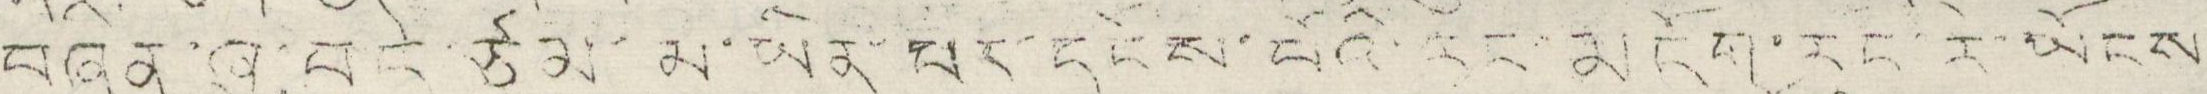བཞིན་ཞུ་བདེ་ཙམ་མ་ཡིན་པར་དངོས་པོའི་རང་མདོག་རང་རེ་ཡོངས
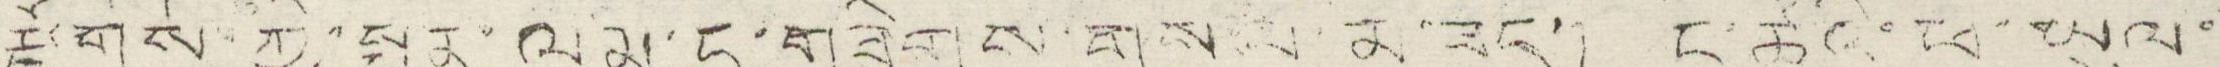རྫོགས་ཀྱི་སྤྱན་ལམ་དུ་གཟིགས་གསལ་མ་ཟད་། ང་ཚོའི་ཕ་ཡུལ་
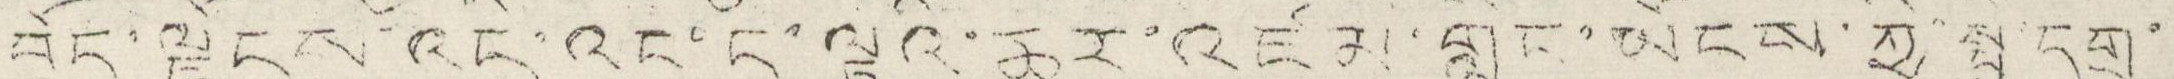བོད་ལྗོངས་འདི་འང་ད་ལྟའི་ཆར་འཛམ་གླིང་ཡོངས་ཀྱི་སྤྱི་དགྲ་
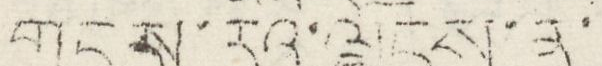གངས་རིའི་ལྗོངས་ན་
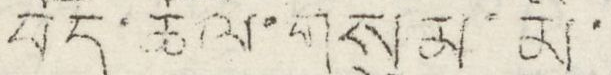བོད་ཆོལ་གསུམ་མི་
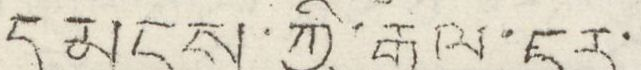དམངས་ཀྱི་རྒྱལ་དར་
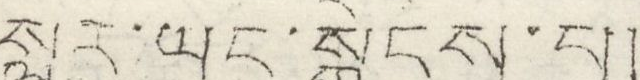སླར་ཡང་སྒྲེངས་པ།
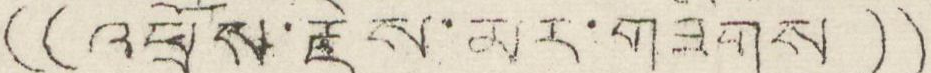(( འཕྲོས་རྗེས་མར་གཟིགས ))
